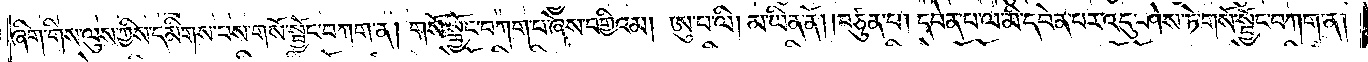ཞིག་གིས་ལུས་ཀྱིས་དམིགས་པས་གསོ་སྦྱོང་བཀག་ན། གསོ་སྦྱོང་བཀག་པ་ཞེས་བགྱིའམ། ཨུ་པ་ལི། མ་ཡིན་ནོ། །བཙུན་པ། དབེན་པ་ལ་མི་དབེན་པར་འདུ་ཤེས་ཏེ་གསོ་སྦྱོང་བཀག་ན།
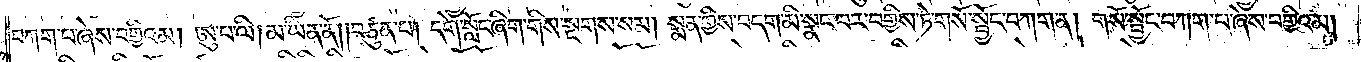བཀག་པ་ཞེས་བགྱིའམ། ཨུ་པ་ལི། མ་ཡིན་ནོ། །བཙུན་པ། དགེ་སློང་ཞིག་གིས་སྔགས་སམ། སྨན་གྱིས་བདག་མི་སྣང་བར་བགྱིས་ཏེ་གསོ་སྦྱོང་བཀག་ན། གསོ་སྦྱོང་བཀག་པ་ཞེས་བགྱིའམ།
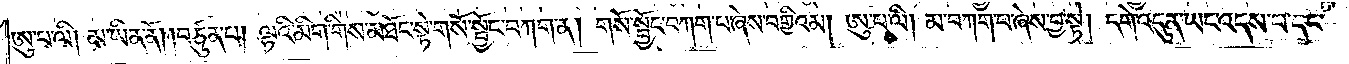ཨུ་པ་ལི། མ་ཡིན་ནོ། །བཙུན་པ། ལྷའི་མིག་གིས་མཐོང་སྟེ་གསོ་སྦྱོང་བཀག་ན། གསོ་སྦྱོང་བཀག་པ་ཞེས་བགྱིའམ། ཨུ་པ་ལི། མ་བཀག་པ་ཞེས་བྱ་སྟེ། དགེ་འདུན་ཡང་འདས་པ་དང་
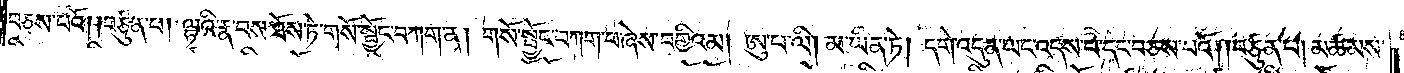བཅས་པའོ། །བཙུན་པ། ལྷའི་རྣ་བས་ཐོས་ཏེ་གསོ་སྦྱོང་བཀག་ན། གསོ་སྦྱོང་བཀག་པ་ཞེས་བགྱིའམ། ཨུ་པ་ལི། མ་ཡིན་ཏེ། དགེ་འདུན་ཡང་འདས་པ་དང་བཅས་པའོ། །བཙུན་པ། མཚམས་
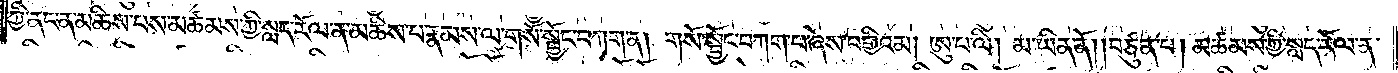ཀྱི་ནང་ན་མཆིས་པས་མཚམས་ཀྱི་སླད་རོལ་ན་མཆིས་པ་རྣམས་ལ་གསོ་སྦྱོང་བཀག་ན། གསོ་སྦྱོང་བཀག་པ་ཞེས་བགྱིའམ། ཨུ་པ་ལི། མ་ཡིན་ནོ། །བཙུན་པ། མཚམས་ཀྱི་སླད་རོལ་ན་
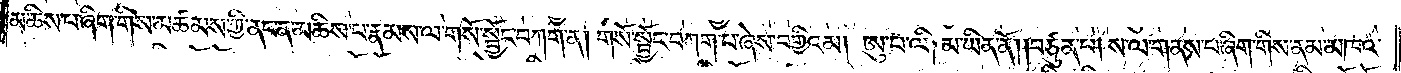མཆིས་པ་ཞིག་གིས་མཚམས་ཀྱི་ནང་ན་མཆིས་པ་རྣམས་ལ་གསོ་སྦྱོང་བཀག་ན། གསོ་སྦྱོང་བཀག་པ་ཞེས་བགྱིའམ། ཨུ་པ་ལི། མ་ཡིན་ནོ། །བཙུན་པ། ས་ལ་གནས་པ་ཞིག་གིས་ནམ་མཁའ་
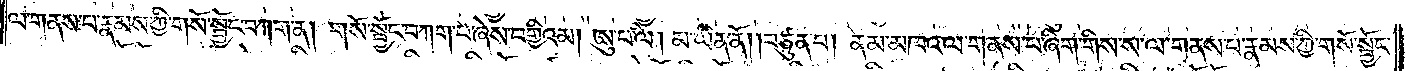ལ་གནས་པ་རྣམས་ཀྱི་གསོ་སྦྱོང་བཀག་ན། གསོ་སྦྱོང་བཀག་པ་ཞེས་བགྱིའམ། ཨུ་པ་ལི། མ་ཡིན་ནོ། །བཙུན་པ། ནམ་མཁའ་ལ་གནས་པ་ཞིག་གིས་ས་ལ་གནས་པ་རྣམས་ཀྱི་གསོ་སྦྱོང་
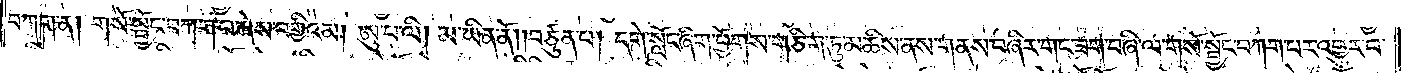བཀག་ན། གསོ་སྦྱོང་བཀག་པ་ཞེས་བགྱིའམ། ཨུ་པ་ལི། མ་ཡིན་ནོ། །བཙུན་པ། དགེ་སློང་ཞིག་ཕྱོགས་གཅིག་ཏུ་མཆིས་ནས་གནས་བཞིར་གང་ཟག་བཞི་ལ་གསོ་སྦྱོང་བཀག་པར་འགྱུར་བ་
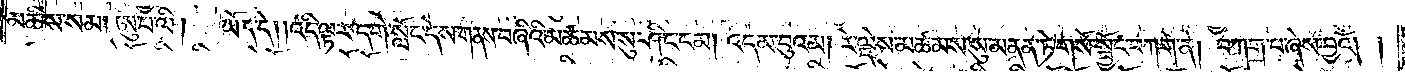མཆིས་སམ། ཨུ་པ་ལི། ཡོད་དེ། །འདི་ལྟར་དགེ་སློང་དེས་གནས་བཞིའི་མཚམས་སུ་ཤིང་ངམ། འདམ་བུའམ། རེ་ལྡེས་མཚམས་སུ་མནན་ཏེ་གསོ་སྦྱོང་བཀག་ན། བཀག་པ་ཞེས་བྱའོ། །
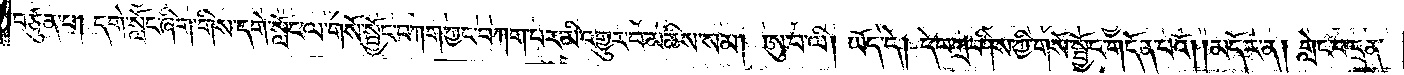བཙུན་པ། དགེ་སློང་ཞིག་གིས་དགེ་སློང་ལ་གསོ་སྦྱོང་བཀག་ཀྱང་བཀག་པར་མི་འགྱུར་བ་མཆིས་སམ། ཨུ་པ་ལི། ཡོད་དེ། དེ་བཀྲ་ཤིས་ཀྱི་གསོ་སྦྱོང་གདོན་པའོ། །མདོར་ན། གླེང་བ་དྲན་
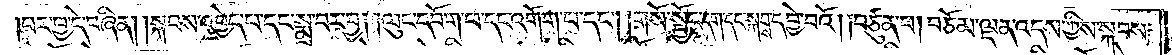།པར་བྱ་དེ་བཞིན། །སྐབས་འབྱེད་པ་དང་སྨྲ་བར་བྱ། །ལུང་དབོག་པ་དང་འགོག་པ་དང༌། །གསོ་སྦྱོང་དག་དང་སྐབས་དབྱེ་བའོ། །བཙུན་པ། བཅོམ་ལྡན་འདས་ཀྱིས་སྐབས་
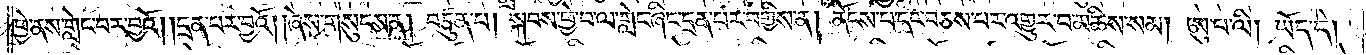ཕྱེ་ནས་གླེང་བར་བྱའོ། །དྲན་པར་བྱའོ། །ཞེས་གསུངས་ན། བཙུན་པ། སྐབས་ཕྱེ་བ་ལ་གླེང་ཞིང་དྲན་པར་བགྱིས་ན། ནོངས་པ་དང་བཅས་པར་འགྱུར་བ་མཆིས་སམ། ཨུ་པ་ལི། ཡོད་དེ།
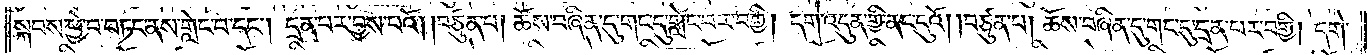སྐབས་ཕྱེ་བ་བཏང་ནས་གླེང་བ་དང༌། དྲན་པར་བྱས་པའོ། །བཙུན་པ། ཆོས་བཞིན་དུ་གང་དུ་གླེང་བར་བགྱི། དགེ་འདུན་གྱི་ནང་དུའོ། །བཙུན་པ། ཆོས་བཞིན་དུ་གང་དུ་དྲན་པར་བགྱི། དགེ་
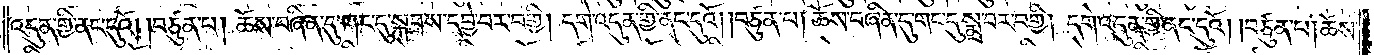འདུན་གྱི་ནང་དུའོ། །བཙུན་པ། ཆོས་བཞིན་དུ་གང་དུ་སྐབས་དབྱེ་བར་བགྱི། དགེ་འདུན་གྱི་ནང་དུའོ། །བཙུན་པ། ཆོས་བཞིན་དུ་གང་དུ་སྨྲ་བར་བགྱི། དགེ་འདུན་གྱི་ནང་དུའོ། །བཙུན་པ། ཆོས་
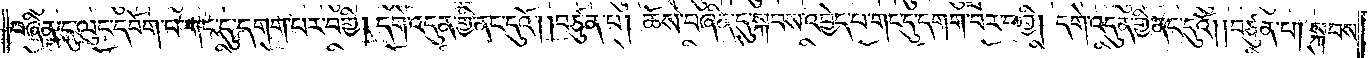བཞིན་དུ་ལུང་དཔོག་པ་གང་དུ་དགག་པར་བགྱི། དགེ་འདུན་གྱི་ནང་དུའོ། །བཙུན་པ། ཆོས་བཞིན་དུ་སྐབས་འབྱེད་པ་གང་དུ་དགག་པར་བགྱི། དགེ་འདུན་གྱི་ནང་དུའོ། །བཙུན་པ། སྐབས་
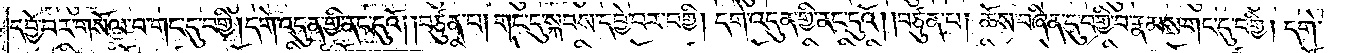དབྱེ་བར་གསོལ་བ་གང་དུ་བགྱི། དགེ་འདུན་གྱི་ནང་དུའོ། །བཙུན་པ། གང་དུ་སྐབས་དབྱེ་བར་བགྱི། དགེ་འདུན་གྱི་ནང་དུའོ། །བཙུན་པ། ཆོས་བཞིན་དུ་བགྱི་བ་རྣམས་གང་དུ་བགྱི། དགེ་
